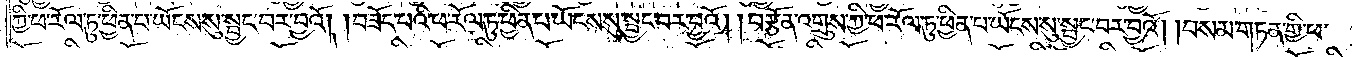ཀྱི་ཕ་རོལ་ཏུ་ཕྱིན་པ་ཡོངས་སུ་སྦྱང་བར་བྱའོ། །བཟོད་པའི་ཕ་རོལ་ཏུ་ཕྱིན་པ་ཡོངས་སུ་སྦྱང་བར་བྱའོ། །བརྩོན་འགྲུས་ཀྱི་ཕ་རོལ་ཏུ་ཕྱིན་པ་ཡོངས་སུ་སྦྱང་བར་བྱའོ། །བསམ་གཏན་གྱི་ཕ་
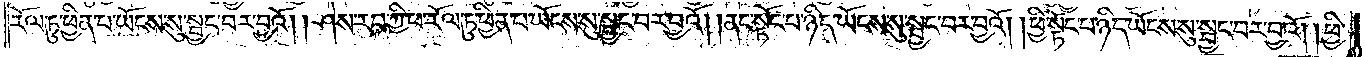རོལ་ཏུ་ཕྱིན་པ་ཡོངས་སུ་སྦྱང་བར་བྱའོ། །ཤེས་རབ་ཀྱི་ཕ་རོལ་ཏུ་ཕྱིན་པ་ཡོངས་སུ་སྦྱང་བར་བྱའོ། །ནང་སྟོང་པ་ཉིད་ཡོངས་སུ་སྦྱང་བར་བྱའོ། །ཕྱི་སྟོང་པ་ཉིད་ཡོངས་སུ་སྦྱང་བར་བྱའོ། །ཕྱི་
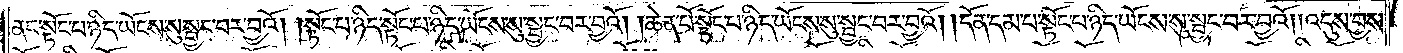ནང་སྟོང་པ་ཉིད་ཡོངས་སུ་སྦྱང་བར་བྱའོ། །སྟོང་པ་ཉིད་སྟོང་པ་ཉིད་ཡོངས་སུ་སྦྱང་བར་བྱའོ། །ཆེན་པོ་སྟོང་པ་ཉིད་ཡོངས་སུ་སྦྱང་བར་བྱའོ། །དོན་དམ་པ་སྟོང་པ་ཉིད་ཡོངས་སུ་སྦྱང་བར་བྱའོ། །འདུས་བྱས་
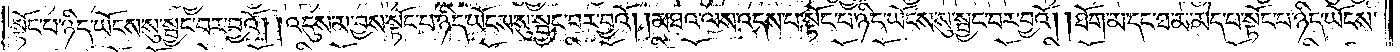སྟོང་པ་ཉིད་ཡོངས་སུ་སྦྱང་བར་བྱའོ། །འདུས་མ་བྱས་སྟོང་པ་ཉིད་ཡོངས་སུ་སྦྱང་བར་བྱའོ། །མཐའ་ལས་འདས་པ་སྟོང་པ་ཉིད་ཡོངས་སུ་སྦྱང་བར་བྱའོ། །ཐོག་མ་དང་ཐ་མ་མེད་པ་སྟོང་པ་ཉིད་ཡོངས་
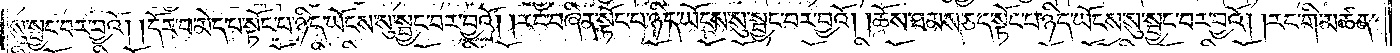སུ་སྦྱང་བར་བྱའོ། །དོར་བ་མེད་པ་སྟོང་པ་ཉིད་ཡོངས་སུ་སྦྱང་བར་བྱའོ། །རང་བཞིན་སྟོང་པ་ཉིད་ཡོངས་སུ་སྦྱང་བར་བྱའོ། །ཆོས་ཐམས་ཅད་སྟོང་པ་ཉིད་ཡོངས་སུ་སྦྱང་བར་བྱའོ། །རང་གི་མཚན་
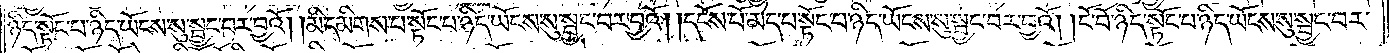ཉིད་སྟོང་པ་ཉིད་ཡོངས་སུ་སྦྱང་བར་བྱའོ། །མི་དམིགས་པ་སྟོང་པ་ཉིད་ཡོངས་སུ་སྦྱང་བར་བྱའོ། །དངོས་པོ་མེད་པ་སྟོང་པ་ཉིད་ཡོངས་སུ་སྦྱང་བར་བྱའོ། །ངོ་བོ་ཉིད་སྟོང་པ་ཉིད་ཡོངས་སུ་སྦྱང་བར་
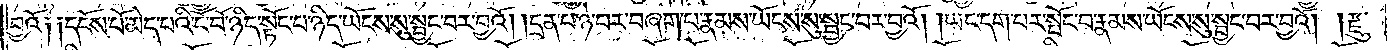བྱའོ༏ ༏དངོས་པོ་མེད་པའི་ངོ་བོ་ཉིད་སྟོང་པ་ཉིད་ཡོངས་སུ་སྦྱང་བར་བྱའོ། །དྲན་པ་ཉེ་བར་བཞག་པ་རྣམས་ཡོངས་སུ་སྦྱང་བར་བྱའོ། །ཡང་དག་པར་སྤོང་བ་རྣམས་ཡོངས་སུ་སྦྱང་བར་བྱའོ། །རྫུ་
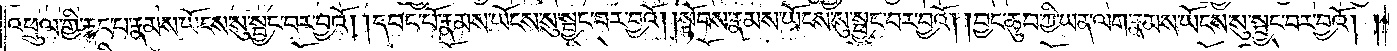འཕྲུལ་གྱི་རྐང་པ་རྣམས་ཡོངས་སུ་སྦྱང་བར་བྱའོ། །དབང་པོ་རྣམས་ཡོངས་སུ་སྦྱང་བར་བྱའོ། །སྟོབས་རྣམས་ཡོངས་སུ་སྦྱང་བར་བྱའོ། །བྱང་ཆུབ་ཀྱི་ཡན་ལག་རྣམས་ཡོངས་སུ་སྦྱང་བར་བྱའོ། །
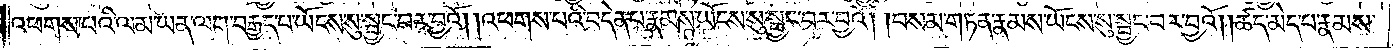འཕགས་པའི་ལམ་ཡན་ལག་བརྒྱད་པ་ཡོངས་སུ་སྦྱང་བར་བྱའོ། །འཕགས་པའི་བདེན་པ་རྣམས་ཡོངས་སུ་སྦྱང་བར་བྱའོ། །བསམ་གཏན་རྣམས་ཡོངས་སུ་སྦྱང་བར་བྱའོ། །ཚད་མེད་པ་རྣམས་
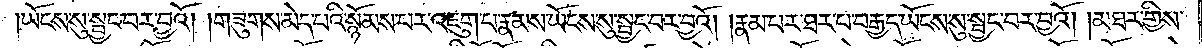ཡོངས་སུ་སྦྱང་བར་བྱའོ། །གཟུགས་མེད་པའི་སྙོམས་པར་འཇུག་པ་རྣམས་ཡོངས་སུ་སྦྱང་བར་བྱའོ། རྣམ་པར་ཐར་པ་བརྒྱད་ཡོངས་སུ་སྦྱང་བར་བྱའོ། །མཐར་གྱིས་
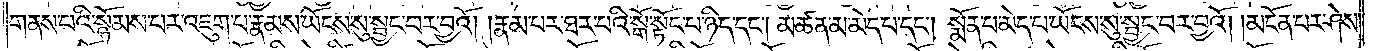གནས་པའི་སྙོམས་པར་འཇུག་པ་རྣམས་ཡོངས་སུ་སྦྱང་བར་བྱའོ། །རྣམ་པར་ཐར་པའི་སྒོ་སྟོང་པ་ཉིད་དང༌། །མཚན་མ་མེད་པ་དང༌། སྨོན་པ་མེད་པ་ཡོངས་སུ་སྦྱང་བར་བྱའོ། །མངོན་པར་ཤེས་
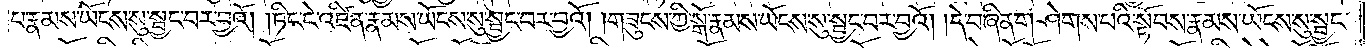པ་རྣམས་ཡོངས་སུ་སྦྱང་བར་བྱའོ། །ཏིང་ངེ་འཛིན་རྣམས་ཡོངས་སུ་སྦྱང་བར་བྱའོ། །གཟུངས་ཀྱི་སྒོ་རྣམས་ཡོངས་སུ་སྦྱང་བར་བྱའོ། །དེ་བཞིན་གཤེགས་པའི་སྟོབས་རྣམས་ཡོངས་སུ་སྦྱང་
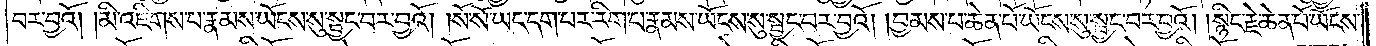བར་བྱའོ། །མི་འཇིགས་པ་རྣམས་ཡོངས་སུ་སྦྱང་བར་བྱའོ། །སོ་སོ་ཡང་དག་པར་རིག་པ་རྣམས་ཡོངས་སུ་སྦྱང་བར་བྱའོ། །བྱམས་པ་ཆེན་པོ་ཡོངས་སུ་སྦྱང་བར་བྱའོ། །སྙིང་རྗེ་ཆེན་པོ་ཡོངས་
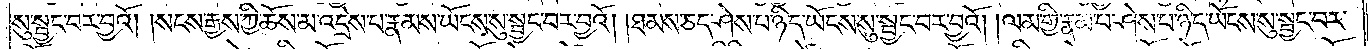སུ་སྦྱང་བར་བྱའོ། །སངས་རྒྱས་ཀྱི་ཆོས་མ་འདྲེས་པ་རྣམས་ཡོངས་སུ་སྦྱང་བར་བྱའོ། །ཐམས་ཅད་ཤེས་པ་ཉིད་ཡོངས་སུ་སྦྱང་བར་བྱའོ། །ལམ་གྱི་རྣམ་པ་ཤེས་པ་ཉིད་ཡོངས་སུ་སྦྱང་བར་
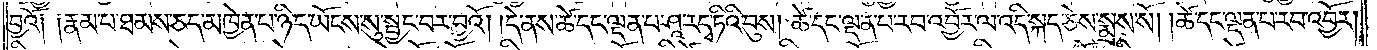བྱའོ༏ ༏རྣམ་པ་ཐམས་ཅད་མཁྱེན་པ་ཉིད་ཡོངས་སུ་སྦྱང་བར་བྱའོ། །དེ་ནས་ཚེ་དང་ལྡན་པ་ཤཱ་ར་དྭ་ཏིའི་བུས། ཚེ་དང་ལྡན་པ་རབ་འབྱོར་ལ་འདི་སྐད་ཅེས་སྨྲས་སོ། །ཚེ་དང་ལྡན་པ་རབ་འབྱོར།
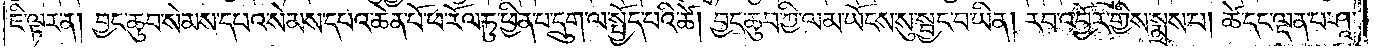ཇི་ལྟར་ན། བྱང་ཆུབ་སེམས་དཔའ་སེམས་དཔའ་ཆེན་པོ་ཕ་རོལ་ཏུ་ཕྱིན་པ་དྲུག་ལ་སྤྱོད་པའི་ཚེ། བྱང་ཆུབ་ཀྱི་ལམ་ཡོངས་སུ་སྦྱང་བ་ཡིན། རབ་འབྱོར་གྱིས་སྨྲས་པ། ཚེ་དང་ལྡན་པ་ཤཱ་
